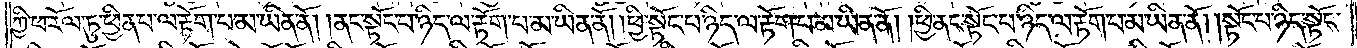ཀྱི་ཕ་རོལ་ཏུ་ཕྱིན་པ་ལ་རྟོག་པ་མ་ཡིན་ནོ། །ནང་སྟོང་པ་ཉིད་ལ་རྟོག་པ་མ་ཡིན་ནོ། །ཕྱི་སྟོང་པ་ཉིད་ལ་རྟོག་པ་མ་ཡིན་ནོ། །ཕྱི་ནང་སྟོང་པ་ཉིད་ལ་རྟོག་པ་མ་ཡིན་ནོ། །སྟོང་པ་ཉིད་སྟོང་
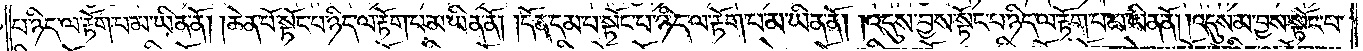པ་ཉིད་ལ་རྟོག་པ་མ་ཡིན་ནོ། །ཆེན་པོ་སྟོང་པ་ཉིད་ལ་རྟོག་པ་མ་ཡིན་ནོ། །དོན་དམ་པ་སྟོང་པ་ཉིད་ལ་རྟོག་པ་མ་ཡིན་ནོ། །འདུས་བྱས་སྟོང་པ་ཉིད་ལ་རྟོག་པ་མ་ཡིན་ནོ། འདུས་མ་བྱས་སྟོང་པ་
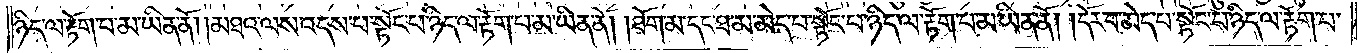ཉིད་ལ་རྟོག་པ་མ་ཡིན་ནོ། །མཐའ་ལས་འདས་པ་སྟོང་པ་ཉིད་ལ་རྟོག་པ་མ་ཡིན་ནོ། །ཐོག་མ་དང་ཐ་མ་མེད་པ་སྟོང་པ་ཉིད་ལ་རྟོག་པ་མ་ཡིན་ནོ། །དོར་བ་མེད་པ་སྟོང་པ་ཉིད་ལ་རྟོག་པ་
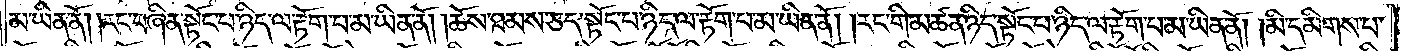མ་ཡིན་ནོ། །རང་བཞིན་སྟོང་པ་ཉིད་ལ་རྟོག་པ་མ་ཡིན་ནོ། །ཆོས་ཐམས་ཅད་སྟོང་པ་ཉིད་ལ་རྟོག་པ་མ་ཡིན་ནོ། །རང་གི་མཚན་ཉིད་སྟོང་པ་ཉིད་ལ་རྟོག་པ་མ་ཡིན་ནོ། །མི་དམིགས་པ་
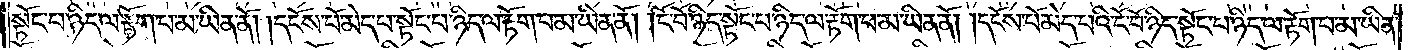སྟོང་པ་ཉིད་ལ་རྟོག་པ་མ་ཡིན་ནོ། །དངོས་པོ་མེད་པ་སྟོང་པ་ཉིད་ལ་རྟོག་པ་མ་ཡིན་ནོ། །ངོ་བོ་ཉིད་སྟོང་པ་ཉིད་ལ་རྟོག་པ་མ་ཡིན་ནོ། །དངོས་པོ་མེད་པའི་ངོ་བོ་ཉིད་སྟོང་པ་ཉིད་ལ་རྟོག་པ་མ་ཡིན་
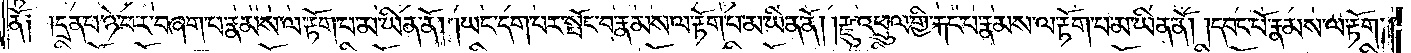ནོ༑ ༑དྲན་པ་ཉེ་བར་བཞག་པ་རྣམས་ལ་རྟོག་པ་མ་ཡིན་ནོ། །ཡང་དག་པར་སྤོང་བ་རྣམས་ལ་རྟོག་པ་མ་ཡིན་ནོ། །རྫུ་འཕྲུལ་གྱི་རྐང་པ་རྣམས་ལ་རྟོག་པ་མ་ཡིན་ནོ། །དབང་པོ་རྣམས་ལ་རྟོག་
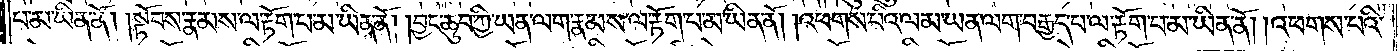པ་མ་ཡིན་ནོ། །སྟོབས་རྣམས་ལ་རྟོག་པ་མ་ཡིན་ནོ། །བྱང་ཆུབ་ཀྱི་ཡན་ལག་རྣམས་ལ་རྟོག་པ་མ་ཡིན་ནོ། །འཕགས་པའི་ལམ་ཡན་ལག་བརྒྱད་པ་ལ་རྟོག་པ་མ་ཡིན་ནོ། །འཕགས་པའི་
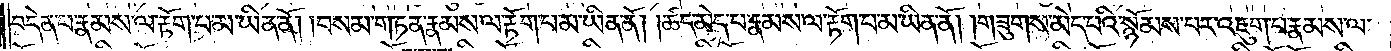བདེན་པ་རྣམས་ལ་རྟོག་པ་མ་ཡིན་ནོ། །བསམ་གཏན་རྣམས་ལ་རྟོག་པ་མ་ཡིན་ནོ། །ཚད་མེད་པ་རྣམས་ལ་རྟོག་པ་མ་ཡིན་ནོ། །གཟུགས་མེད་པའི་སྙོམས་པར་འཇུག་པ་རྣམས་ལ་
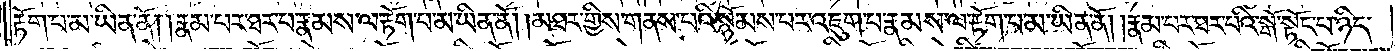རྟོག་པ་མ་ཡིན་ནོ། །རྣམ་པར་ཐར་པ་རྣམས་ལ་རྟོག་པ་མ་ཡིན་ནོ། །མཐར་གྱིས་གནས་པའི་སྙོམས་པར་འཇུག་པ་རྣམས་ལ་རྟོག་པ་མ་ཡིན་ནོ། །རྣམ་པར་ཐར་པའི་སྒོ་སྟོང་པ་ཉིད་
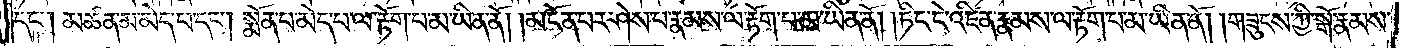དང༌། མཚན་མ་མེད་པ་དང༌། སྨོན་པ་མེད་པ་ལ་རྟོག་པ་མ་ཡིན་ནོ། །མངོན་པར་ཤེས་པ་རྣམས་ལ་རྟོག་པ་མ་ཡིན་ནོ། །ཏིང་ངེ་འཛིན་རྣམས་ལ་རྟོག་པ་མ་ཡིན་ནོ། །གཟུངས་ཀྱི་སྒོ་རྣམས་
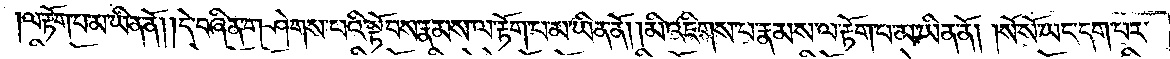ལ་རྟོག་པ་མ་ཡིན་ནོ། །དེ་བཞིན་གཤེགས་པའི་སྟོབས་རྣམས་ལ་རྟོག་པ་མ་ཡིན་ནོ། །མི་འཇིགས་པ་རྣམས་ལ་རྟོག་པ་མ་ཡིན་ནོ། །སོ་སོ་ཡང་དག་པར་
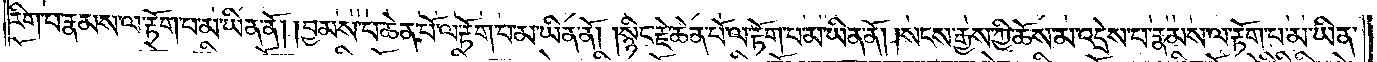རིག་པ་རྣམས་ལ་རྟོག་པ་མ་ཡིན་ནོ། །བྱམས་པ་ཆེན་པོ་ལ་རྟོག་པ་མ་ཡིན་ནོ། །སྙིང་རྗེ་ཆེན་པོ་ལ་རྟོག་པ་མ་ཡིན་ནོ། །སངས་རྒྱས་ཀྱི་ཆོས་མ་འདྲེས་པ་རྣམས་ལ་རྟོག་པ་མ་ཡིན་
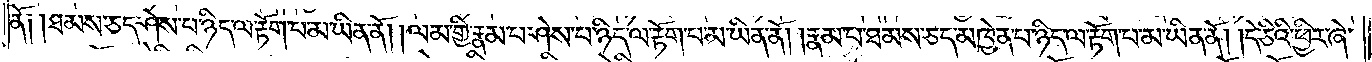ནོ༑ །ཐམས་ཅད་ཤེས་པ་ཉིད་ལ་རྟོག་པ་མ་ཡིན་ནོ། །ལམ་གྱི་རྣམ་པ་ཤེས་པ་ཉིད་ལ་རྟོག་པ་མ་ཡིན་ནོ། རྣམ་པ་ཐམས་ཅད་མཁྱེན་པ་ཉིད་ལ་རྟོག་པ་མ་ཡིན་ནོ། །དེ་ཅིའི་ཕྱིར་ཞེ་
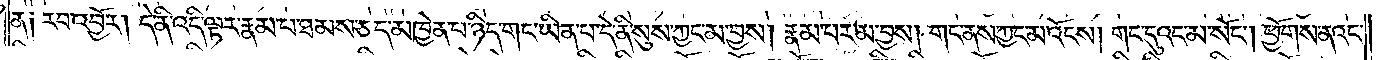ན༑ རབ་འབྱོར། དེ་ནི་འདི་ལྟར་རྣམ་པ་ཐམས་ཅད་མཁྱེན་པ་ཉིད་གང་ཡིན་པ་དེ་ནི་སུས་ཀྱང་མ་བྱས། རྣམ་པར་མ་བྱས། གང་ནས་ཀྱང་མ་འོངས། གང་དུའང་མ་སོང༌། ཕྱོགས་ནའང་
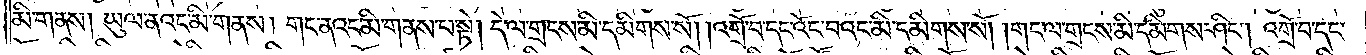མི་གནས། ཡུལ་ནའང་མི་གནས། གང་ནའང་མི་གནས་པ་སྟེ། དེ་ལ་གྲངས་མི་དམིགས་སོ། །འགྲོ་བ་དང་འོང་བའང་མི་དམིགས་སོ། །གང་ལ་གྲངས་མི་དམིགས་ཤིང༌། འགྲོ་བ་དང་
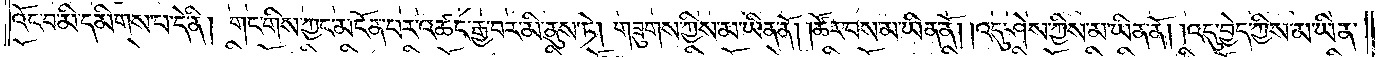འོང་བ་མི་དམིགས་པ་དེ་ནི། གང་གིས་ཀྱང་མངོན་པར་འཚང་རྒྱ་བར་མི་ནུས་ཏེ། གཟུགས་ཀྱིས་མ་ཡིན་ནོ། །ཚོར་བས་མ་ཡིན་ནོ། །འདུ་ཤེས་ཀྱིས་མ་ཡིན་ནོ། །འདུ་བྱེད་ཀྱིས་མ་ཡིན་
